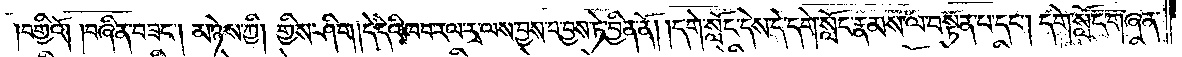བགྱིའོ། །བཞིན་བཟང༌། མ་ཉེས་ཀྱི། གྱིས་ཤིག །དེ་དེའི་ཁབ་རལ་རྭ་ལས་བྱས་པ་བྱས་ཏེ་བྱིན་ནོ། །དགེ་སློང་དེས་དེ་དགེ་སློང་རྣམས་ལ་བསྟན་པ་དང༌། དགེ་སློང་གཞན་
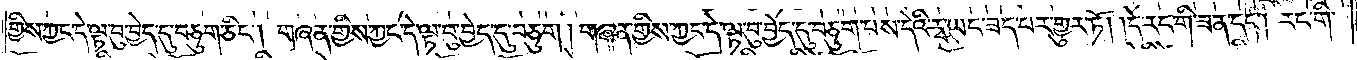གྱིས་ཀྱང་དེ་ལྟ་བུ་བྱེད་དུ་བཅུག་ཅིང༌། གཞན་གྱིས་ཀྱང་དེ་ལྟ་བུ་བྱེད་དུ་བཅུག །གཞན་གྱིས་ཀྱང་དེ་ལྟ་བུ་བྱེད་དུ་བཅུག་པས་དེའི་རྭ་ཡང་ཟད་པར་གྱུར་ཏོ། །དེ་རང་གི་ཟན་དང༌། རང་གི་
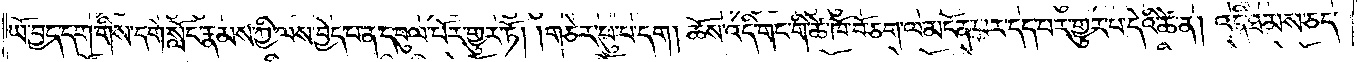ཡོ་བྱད་དག་གིས་དགེ་སློང་རྣམས་ཀྱི་ལས་བྱེད་པ་ན་དབུལ་པོར་གྱུར་ཏོ། །གཅེར་པུ་པ་དག །ཆོས་འདི་གང་གིས་ཚེ་ཁོ་བོ་ཅག་ལ་མངོན་པར་དད་པར་གྱུར་པ་དེ་ཚེ་ན། འདི་ཐམས་ཅད་
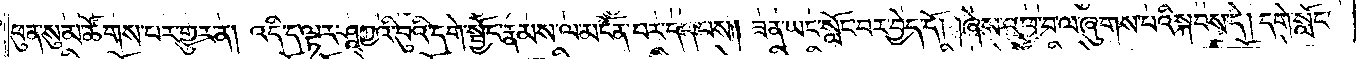ཕུན་སུམ་ཚོགས་པར་གྱུར་ན། འདི་ད་ལྟར་ཤཱཀྱའི་བུའི་དགེ་སྦྱོང་རྣམས་ལ་མངོན་པར་དད་པས། ཟན་ཡང་སློང་བར་བྱེད་དོ། །ཞེས་འཕྱ་བ་ལ་ཞུགས་པའི་སྐབས་དེ། དགེ་སློང་
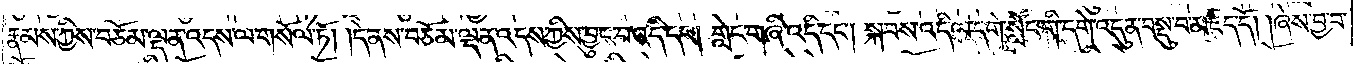རྣམས་ཀྱིས་བཅོམ་ལྡན་འདས་ལ་གསོལ་ཏོ། །དེ་ནས་བཅོམ་ལྡན་འདས་ཀྱིས་བྱུང་བ་འདི་དང༌། གླེང་གཞི་འདི་དང༌། སྐབས་འདི་ལ་དགེ་སློང་གི་དགེ་འདུན་བསྡུ་བ་མཛད་དོ། ཞེས་བྱ་བ་
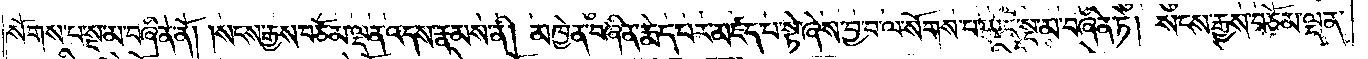སོགས་པ་སྔ་མ་བཞིན་ནོ། །སངས་རྒྱས་བཅོམ་ལྡན་འདས་རྣམས་ནི། མཁྱེན་བཞིན་རྨེད་པར་མཛད་པ་སྟེ་ཞེས་བྱ་བ་ལ་སོགས་པ་ཡང་སྔ་མ་བཞིན་ཏེ། སངས་རྒྱས་བཅོམ་ལྡན་
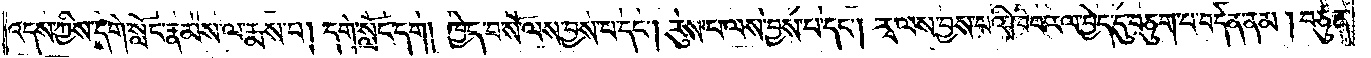འདས་ཀྱིས་དགེ་སློང་རྣམས་ལ་རྨས་པ། དགེ་སློང་དག །ཁྱེད་བ་སོ་ལས་བྱས་པ་དང༌། རུས་པ་ལས་བྱས་པ་དང༌། རྭ་ལས་བྱས་པའི་ཁབ་རལ་བྱེད་དུ་བཅུག་པ་བདེན་ནམ། བཅུག་
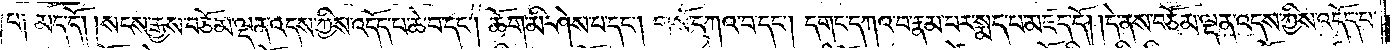པ༑ མད་དོ། །སངས་རྒྱས་བཅོམ་ལྡན་འདས་ཀྱིས་འདོད་པ་ཆེ་བ་དང༌། ཆོག་མི་ཤེས་པ་དང༌། གསོ་དཀའ་བ་དང༌། དགང་དཀའ་བ་རྣམ་པར་སྨད་པ་མཛད་དོ། །དེ་ནས་བཅོམ་ལྡན་འདས་ཀྱིས་འདོད་པ་
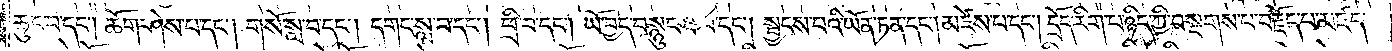ཆུང་བ་དང༌། ཆོག་ཤེས་པ་དང༌། གསོ་སླ་བ་དང༌། དགང་སླ་བ་དང༌། ཕྲི་བ་དང༌། ཡོ་བྱད་བསྙུངས་པ་དང༌། སྦྱངས་པའི་ཡོན་ཏན་དང༌། མཛེས་པ་དང༌། དྲོད་རིག་པ་ཉིད་ཀྱི་བསྔགས་པ་བརྗོད་པ་མཛད་
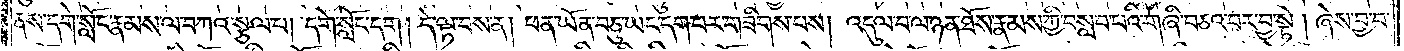ནས་དགེ་སློང་རྣམས་ལ་བཀའ་སྩལ་པ། དགེ་སློང་དག །དེ་ལྟ་བས་ན། ཕན་ཡོན་བཅུ་ཡང་དག་པར་གཟིགས་པས། འདུལ་བ་ཉན་ཐོས་རྣམས་ཀྱི་བསླབ་པའི་གཞི་བཅའ་བར་བྱ་སྟེ། ཞེས་བྱ་བ་
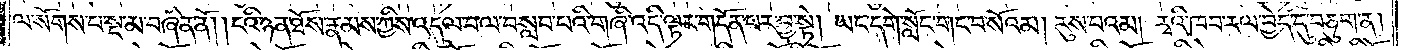ལ་སོགས་པ་སྔ་མ་བཞིན་ནོ། །ངའི་ཉན་ཐོས་རྣམས་ཀྱིས་འདུལ་བ་ལ་བསླབ་པའི་གཞི་འདི་ལྟར་གདོན་པར་བྱ་སྟེ། ཡང་དགེ་སློང་གང་བ་སོའམ། རུས་པའམ། རྭའི་ཁབ་རལ་བྱེད་དུ་བཅུག་ན།
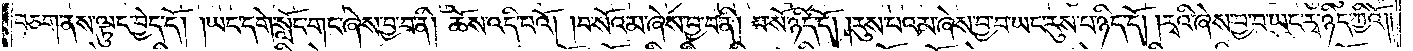བཅག་ནས་ལྟུང་བྱེད་དོ། །ཡང་དགེ་སློང་གང་ཞེས་བྱ་བ་ནི། ཆོས་འདི་པའོ། །བ་སོའམ་ཞེས་བྱ་བ་ནི། བ་སོ་ཉིད་དོ། །རུས་པའམ་ཞེས་བྱ་བ་ཡང་རུས་པ་ཉིད་དོ། །རྭའི་ཞེས་བྱ་བ་ཡང་རྭ་ཉིད་ཀྱིའོ། །
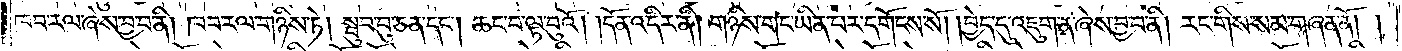ཁབ་རལ་ཞེས་བྱ་བ་ནི། ཁབ་རལ་གཉིས་ཏེ། སྦུབ་བུ་ཅན་དང༌། ཆང་བ་ལྟ་བུའོ། །དོན་འདིར་ནི། གཉིས་གང་ཡིན་པར་དགོངས་སོ། །བྱེད་དུ་འཇུག་ན་ཞེས་བྱ་བ་ནི། རང་གིས་སམ་གཞན་ནོ། །
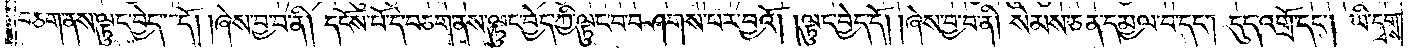བཅག་ནས་ལྟུང་བྱེད་དོ། །ཞེས་བྱ་བ་ནི། དངོས་པོ་དེ་བཅག་ནས་ལྟུང་བྱེད་ཀྱི་ལྟུང་བ་བཤགས་པར་བྱའོ། །ལྟུང་བྱེད་དོ། །ཞེས་བྱ་བ་ནི། སེམས་ཅན་དམྱལ་བ་དང༌། དུད་འགྲོ་དང༌། ཡི་དྭགས་
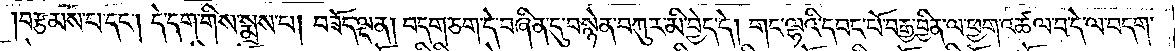།བརྩམས་པ་དང༌། དེ་དག་གིས་སྨྲས་པ། བཟོད་ལྡན། བདག་ཅག་དེ་བཞིན་དུ་བསྙེན་བཀུར་མི་བྱེད་དེ། གང་ལྷའི་དབང་པོ་བརྒྱ་བྱིན་ལ་ཕྱག་འཚལ་བ་དེ་ལ་བདག་
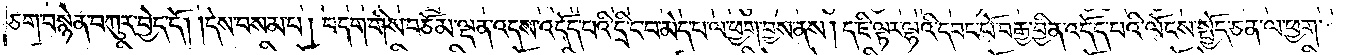ཅག་བསྙེན་བཀུར་བྱེད་དོ། །དེས་བསམ་པ། བདག་གིས་བཅོམ་ལྡན་འདས་འདོད་པའི་དྲི་ང་བ་མེད་པ་ལ་ཕྱག་བྱས་ནས། ད་ཇི་ལྟར་ལྷའི་དབང་པོ་བརྒྱ་བྱིན་འདོད་པའི་ལོངས་སྤྱོད་ཅན་ལ་ཕྱག་
